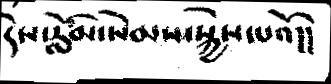དེས་རློམ་སེམས་སྐྱེས་པའོ།།
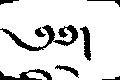༄༅།
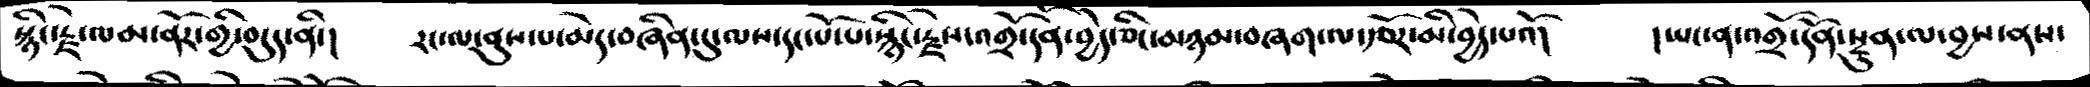སྙིང་རྗེ་ལམ་ནོར་གྱི་བདུད་ནི་།     རང་ལ་ནུས་པ་མེད་བཞིན་དུ་ལས་དང་པོ་པ་སྙིང་རྗེས་འགྲོ་དོན་བྱེད་ཅིང་མཉམ་བཞག་ལ་རྩོར་མི་བྱེད་པའོ།   །ཡང་ན་འགྲོ་དོན་རྫུན་ལ་བྱས་ནས་
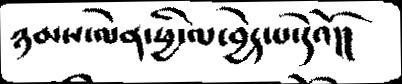ཉམས་ལེན་ཕྱི་ལ་བྱེད་པ་དེའོ།།
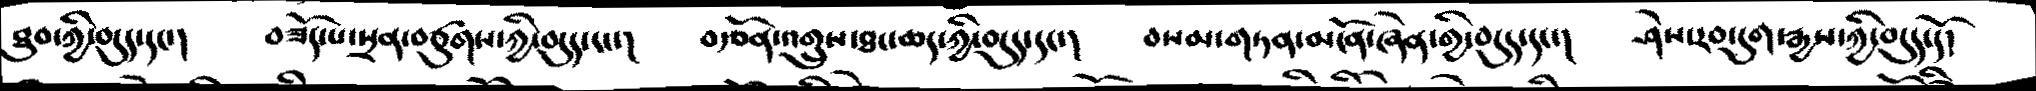ཐུབ་ཀྱི་བདུད་དང་།    བཟོད་པ་སྲན་བཙུགས་ཀྱི་བདུད་དང་།   བརྩོན་འགྲུས་ཐང་ཆད་ཀྱི་བདུད་དང་།   བསམ་གཏན་མངོན་ཞེན་གྱི་བདུད་དང་།   ཤེས་རབ་དུག་རྒྱས་ཀྱི་བདུད་དོ།
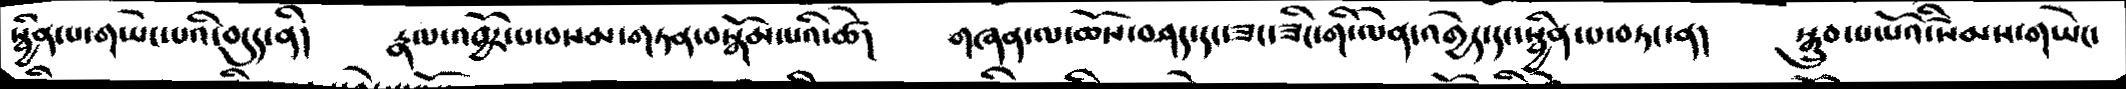སྦྱིན་པ་གཡེང་པའི་བདུད་ནི།     རྣལ་འབྱོར་པ་བསམ་གཏན་བསྒོམ་པའི་ཚེ།     གཞན་ལ་ཆོས་བཤད་དང་ཟང་ཟིང་གི་ལེན་འགྱེད་དང་སྦྱིན་པ་བཏང་ན།   སྒྲུབ་པ་པོའི་སེམས་གཡེང་
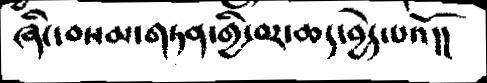ཞིང་བསམ་གཏན་གྱི་བར་ཆད་བྱེད་པའོ།།
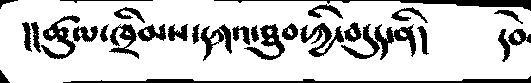།།ཚུལ་ཁྲིམས་དཀའ་ཐུབ་ཀྱི་བདུད་ནི།    དབེ
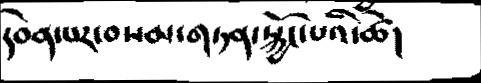དབེན་པར་བསམ་གཏན་སྐྱོང་པའི་ཚེ།
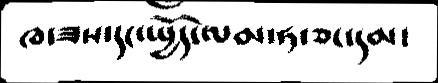ཁ་ཟས་དང་སྤྱོད་ལམ་ཧ་ཅང་དམ་
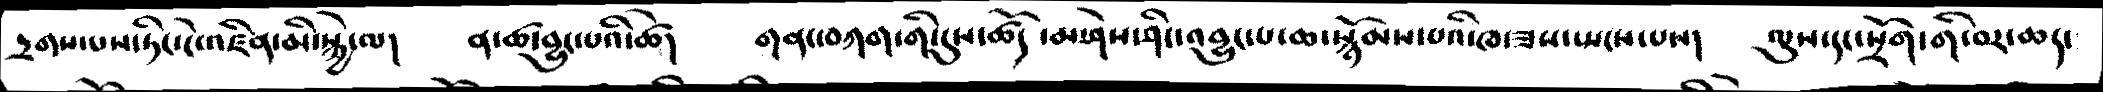དྲགས་པས་ཏིང་ངེ་འཛིན་མི་སྐྱེ་ལ།   ན་ཚ་བྱུང་པའི་ཚེ།     གནང་བཀག་གི་དུས་ཚོད་མ་ཤེས་ཤིང་འབྱུང་པ་ཆ་སྙོམས་པའི་ཁ་ཟས་སྤངས་པས།   ལུས་དང་སྲོག་གི་བར་ཆད་
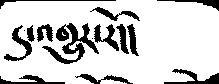དུ་འགྱུར་རོ།།
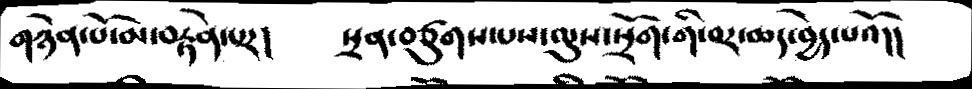གཉེན་པོ་མ་བརྟེན་པར།      སྲན་བཙུགས་པས་ལུས་སྲོག་གི་བར་ཆད་བྱེད་པའོ།།
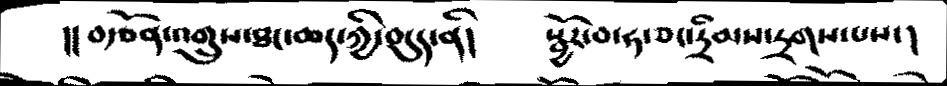།། བརྩོན་འགྲུས་ཐང་ཆད་ཀྱི་བདུད་ནི།      སྦྱོར་བ་ཧ་ཅང་དྲིམས་དྲགས་པས་།
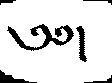༄༅།
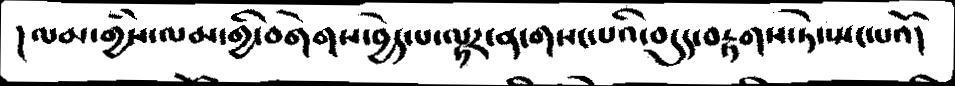།ལམ་གྱིས་ལམ་གྱི་བགེགས་བྱེད་པ་ལྟར་ན་གསང་པའི་བདུད་བརྟགས་ཏེ་སྤང་པའོ།
